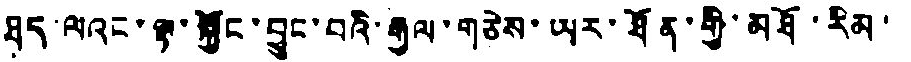ཐད་ལའང་ལྟ་སྐྱོང་བྱུང་བའི་རྒྱལ་གཅེས་ཡར་ཐོན་གྱི་མཐོ་རིམ་
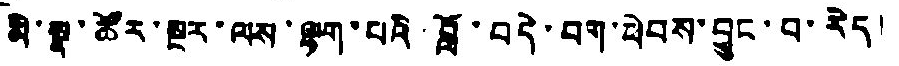མི་སྣ་ཚོར་སྔར་ལས་ལྷག་པའི་བློ་བདེ་བག་ཕེབས་བྱུང་བ་རེད།
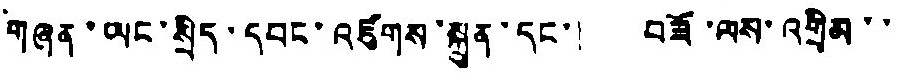གཞན་ཡང་སྲིད་དབང་འཛུགས་སྐྲུན་དང་། བཟོ་ལས་འགྲིམ་་
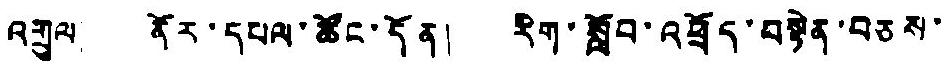འགྲུལ ནོར་དཔལ་ཚོང་དོན། རིག་སློབ་འཕྲོད་བསྟེན་བཅས་
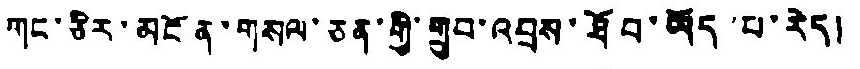གང་ཅིར་མངོན་གསལ་ཅན་གྱི་གྲུབ་འབྲས་ཐོབ་ཡོད་པ་རེད།
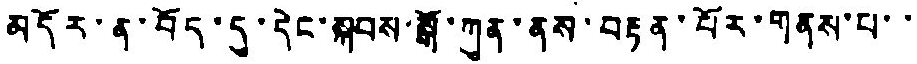མདོར་ན་བོད་དུ་དེང་སྐབས་སྒོ་ཀུན་ནས་བརྟན་པོར་གནས་པ་་
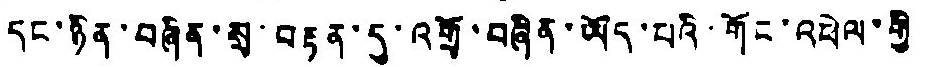དང་ཉིན་བཞིན་སྲ་བརྟན་དུ་འགྲོ་བཞིན་ཡོད་པའི་གོང་འཕེལ་གྱི་
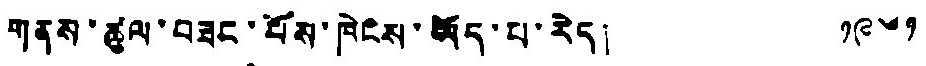གནས་ཚུལ་བཟང་པོས་ཁེངས་ཡོད་པ་རེད། ༡༩༦༡
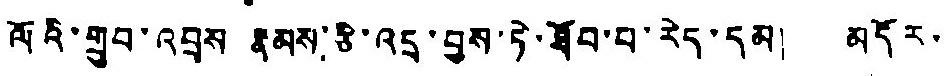ལོའི་གྲུབ་འབྲས རྣམས་ཅི་འདྲ་བྱས་ཏེ་ཐོབ་པ་རེད་དམ། མདོར
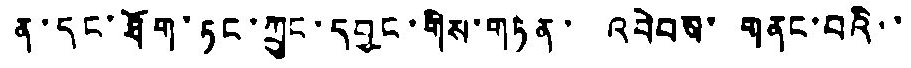ན་དང་ཐོག་ཏང་ཀྲུང་དབྱང་གིས་གཏན་ འབེབས་ གནང་བའི་་
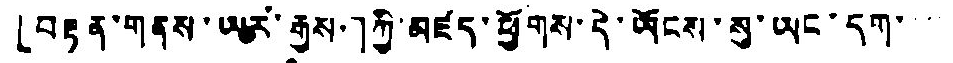「བརྟན་གནས་ཡར་རྒྱས་」ཀྱི་མཛད་ཕྱོགས་དེ་ཡོངས་སུ་ཡང་དག་་་
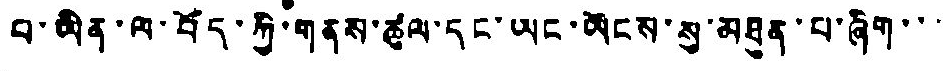བ་ཡིན་ལ་བོད་ཀྱི་གནས་ཚུལ་དང་ཡང་ཡོངས་སུ་མཐུན་པ་ཞིག་་་
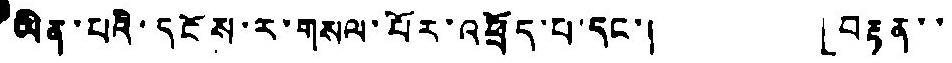ཡིན་པའི་དངོས་ར་གསལ་པོར་འཕྲོད་པ་དང་། 「བརྟན་་
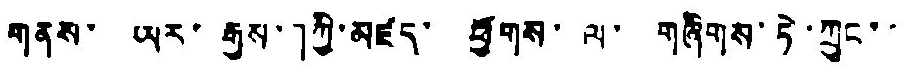གནས་ ཡར་རྒྱས་」ཀྱི་མཛད་ ཕྱོགས་ ལ་ གཞིགས་ཏེ་ཀྲུང་་
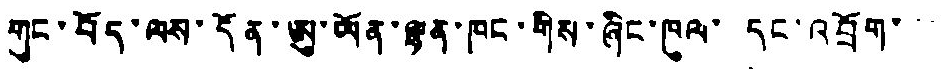གུང་བོད་ལས་དོན་ཨུ་ཡོན་ལྷན་ཁང་གིས་ཞིང་ཁུལ་དང་འབྲོག་་་
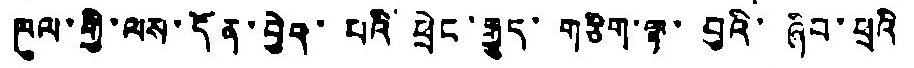ཁུལ་གྱི་ལས་དོན་བྱེད་པའི ཕྲེང་རྒྱུད་གཅིག་ལྟ་ བུའི་ཞིབ་ཕྲའི
